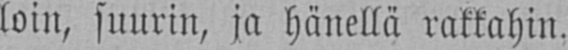loin, suurin, ja hänellä rakkahin.
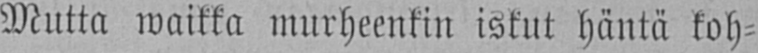Mutta waikka murheenkin iskut häntä koh-
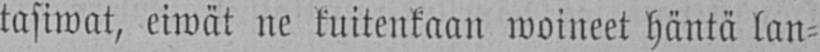tasiwat, eiwät ne kuitenkaan woineet häntä lan-
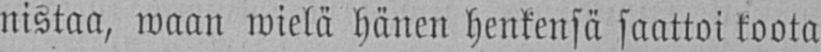nistaa, waan wielä hänen henkensä saattoi koota
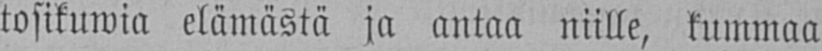tosikuwia elämästä ja antaa niille, kummaa
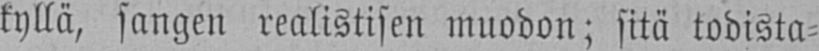kyllä, sangen realistisen muodon; sitä todista-
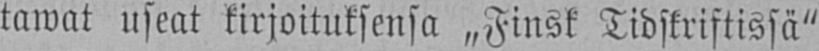tawat useat kirjoituksensa „Finsk Tidskriftissä"
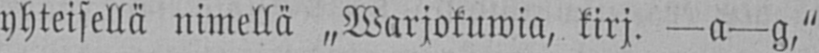yhteisellä nimellä „Warjokuwia, kirj. -a-g,"
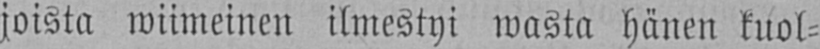joista wiimeinen ilmestyi wasta hänen kuol-
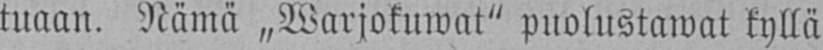tuaan. Nämä „Warjokuwat" puolustawat kyllä
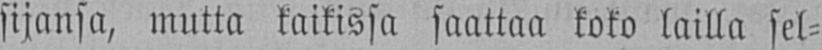sijansa, mutta kaikissa saattaa koko lailla sel-
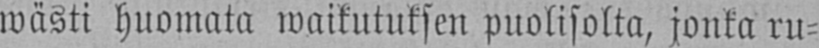wästi huomata waikutuksen puolisolta, jonka ru-
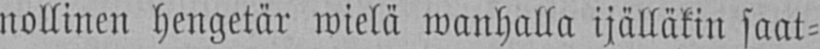nollinen hengetär wielä wanhalla ijälläkin saat-
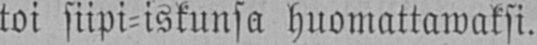toi siipi-iskunsa huomattawaksi.
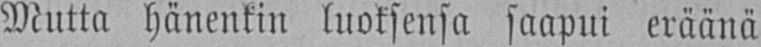Mutta hänenkin luoksensa saapui eräänä
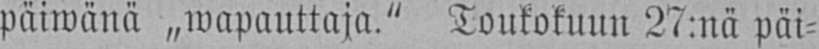päiwänä „wapauttaja." Toukokuun 27:nä päi-
